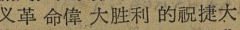义革 命偉 大胜利 的祝捷大
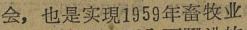会，也是实現1959年畜牧业
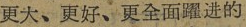更大、更好、更全面躍进的
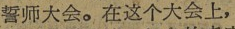誓师大会。在这个大会上，
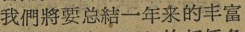我們将要总結一年来的丰富
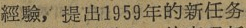經驗，提出1959年的新任务
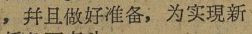，并且做好准备，为实現新
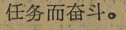任务而奋斗。
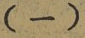（一）
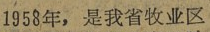1958年，是我省牧业区
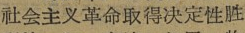社会主义革命取得决定性胜
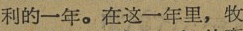利的一年。在这一年里，牧
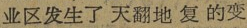业区发生了 天翻地 复 的变
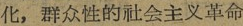化，群众性的社会主义革命
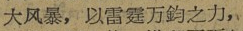大风暴，以雷霆万鈞之力，
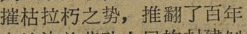摧枯拉朽之势，推翻了百年
